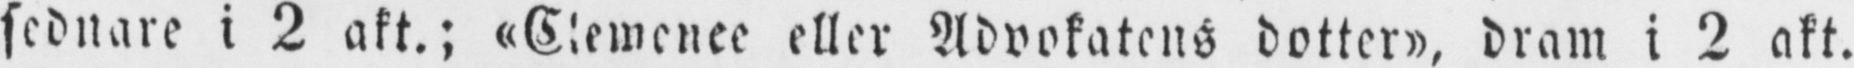sednare i 2 akt.; «Clemence eller Advokatens dotter», dram i 2 akt.
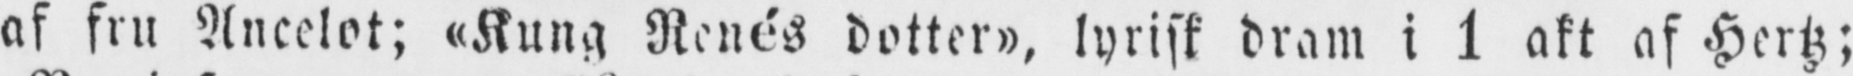af fru Ancelot; «Kung Renés dotter», lyrisk dram i 1 akt af Hertz;
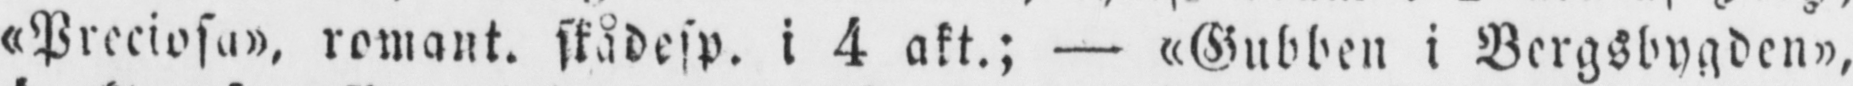«Preciosa», romant. skådesp. i 4 akt.; — «Gubben i Bergsbygden",
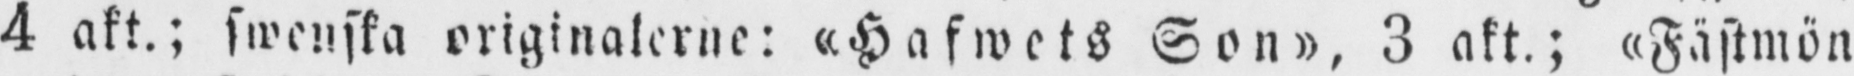4 akt.; swenska originalerne: »Hafwets Son», 3 akt.; «Fästmön
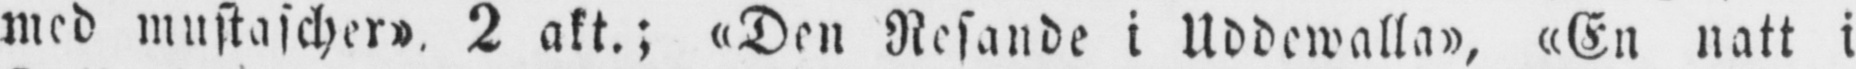med mustascher», 2 akt.; «Den Resande i Uddewalla», «En natt i
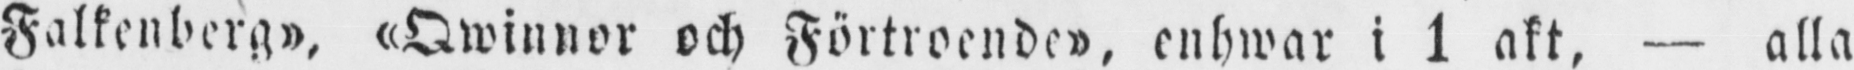Falkenberg», «Qwinnor och Förtroende», enhwar i 1 akt, — alla
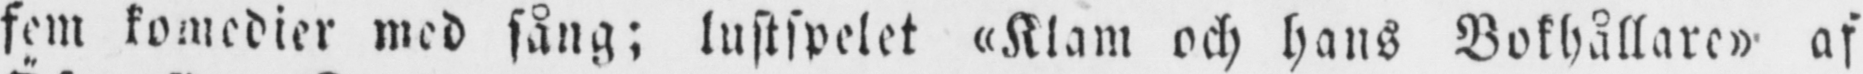fem komedier med sång; lustspelet «Klam och hans Bokhållare» af
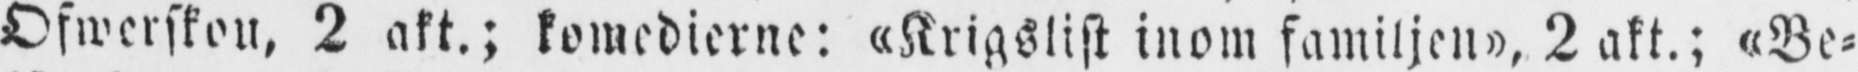Öfwersten, 2 akt.; komedierne: »Krigslist inom familjen», 2 akt.; «Be-
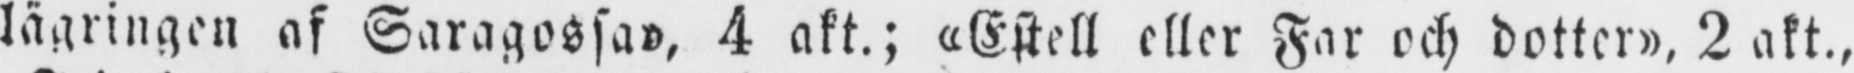lägringen af Saragossa", 4 akt.; "Estell eller Far och dotter», 2 akt.,
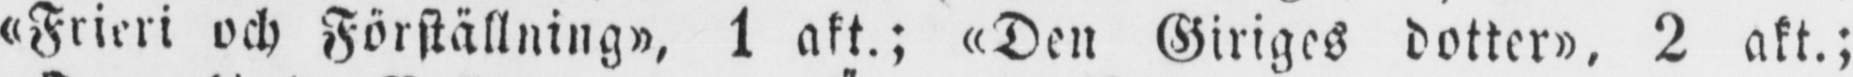«Frieri och Förställning», 1 akt.; «Den Giriges dotter», 2 akt.;
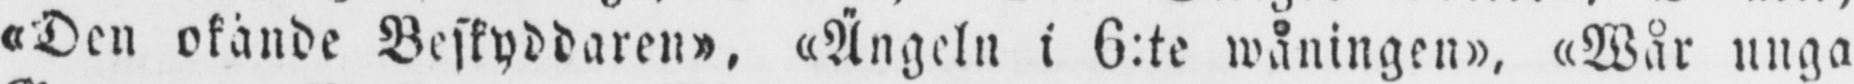«Den okände Beskyddaren», »Ängeln i 6:te wåningen». «Wår unga
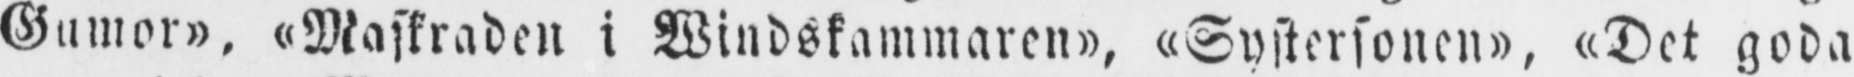Gumor», «Maskraden i Vindskammaren», »Systersonen», »Det goda
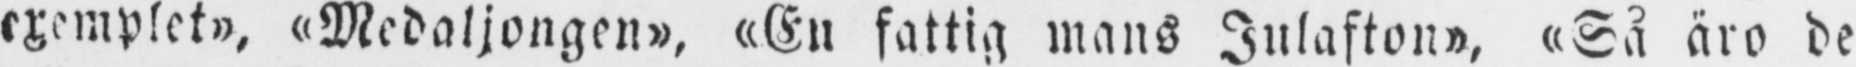exemplet», »Medaljongen», «En fattig mans Julafton», «Så äro de
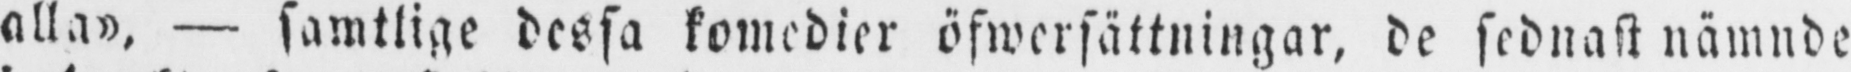alla», — samtlige dessa komedier öfwersättningar, de sednast nämnde
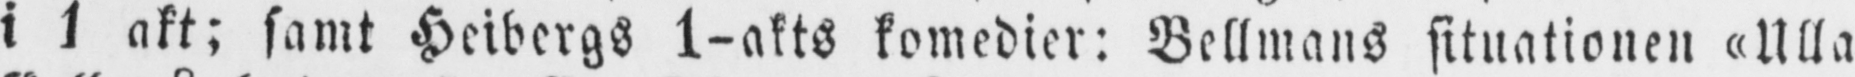i 1 akt; samt Heibergs 1-akts komedier: Bellmans situationen «Ulla
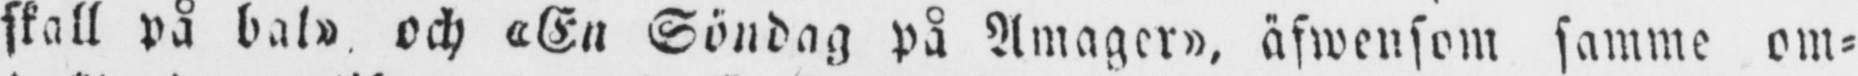skall på bal» och «En Söndag på Amager», äfwensom samme om-
